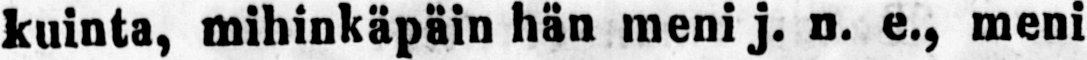kuinta, mihinkäpäin hän meni j. n. e., meni
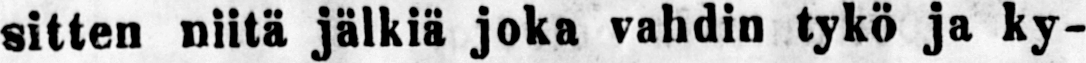sitten niitä jäikiä joka vahdin tykö ja ky-
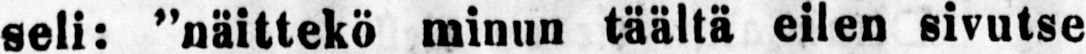seli: "näittekö minun täältä eilen sivutse
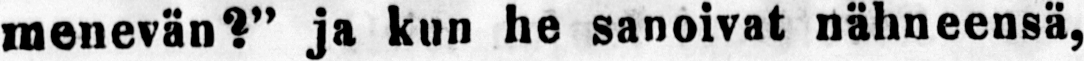menevän?" ja kun he sanoivat nähneensä,
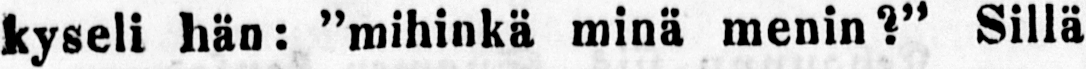kyseli hän: "mihinkä minä menin?" Sillä
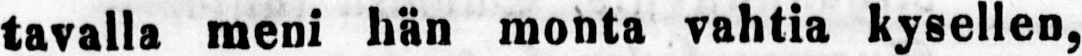tavalla meni hän monta vahtia kysellen,
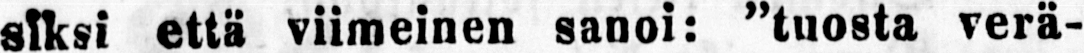siksi että viimeinen sanoi: "tuosta verä-
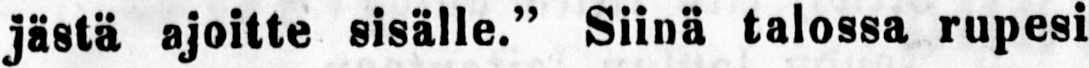jästä ajoitte sisälle." Siinä talossa rupesi
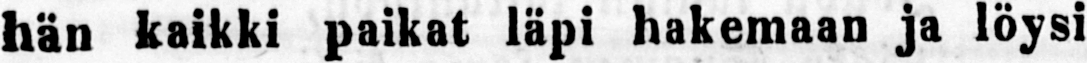hän kaikki paikat läpi hakemaan ja löysi
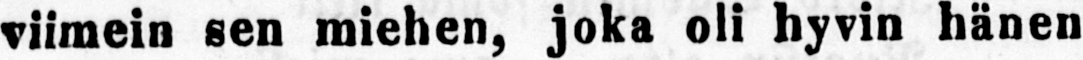viimein sen miehen, joka oli hyvin hänen
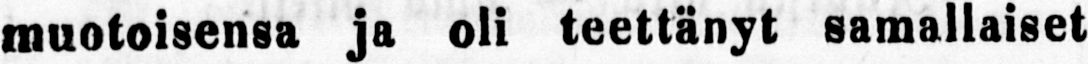muotoisensa ja oli teettänyt samallaiset
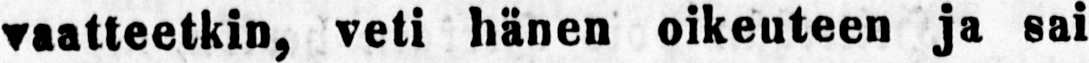vaatteetkin, veti hänen oikeuteen ja sai
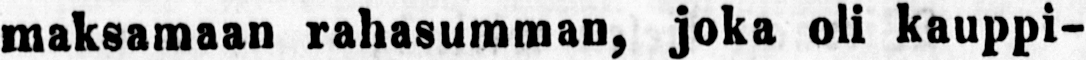maksamaan rahasumman, joka oli kauppi-
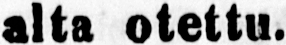alta otettu.
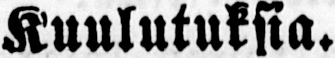Kuulutuksia.
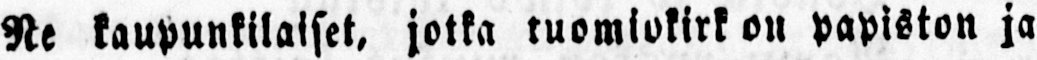Ne kaupunkilaiset, jotka tuomiokirkon papiston ja
